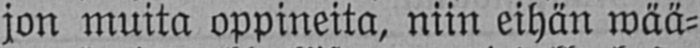jon muita oppineita, niin eihän wää-
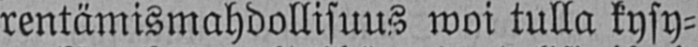rentämismahdollisuus woi tulla kysy-
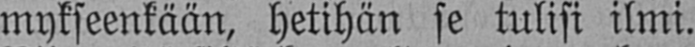mykseenkään, hetihän se tulisi ilmi.
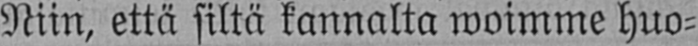Niin, että siltä kannalta woimme huo-
